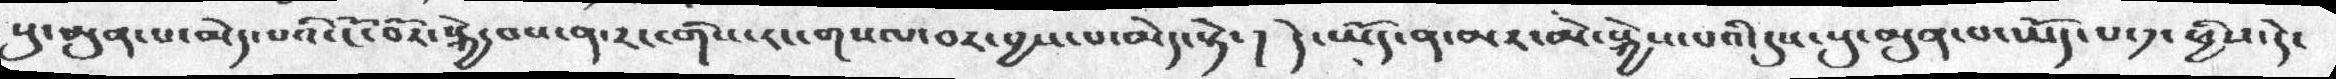སུ་མུན་པ་མེད་པའི་ངོ་བོར་སྐྱེ་བས་ན་རང་གི་རང་གསལ་བར་བྱས་པ་མེད་སྟེ་ ། དེ་ཡོད་ན་མར་མེ་སྐྱེས་པའི་དུས་སུ་མུན་པ་ཡོད་པ་༡་ཕྱིས་དེ་
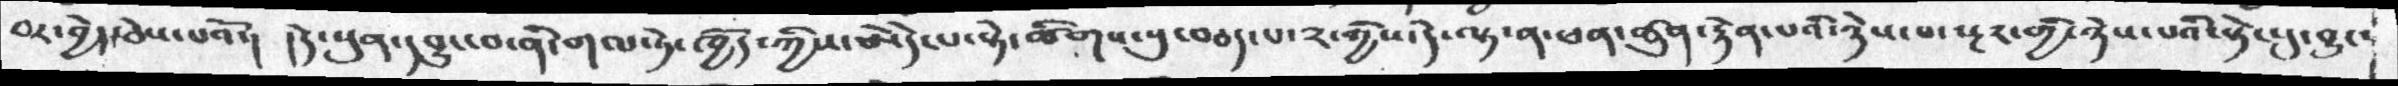བར་བྱེད་ཅེས་པའོ་། །དེ་སུན་དབྱུང་བ་ནི་གལ་ཏེ་ཁྱོད་ཀྱིས་ཨེདེ་པ་སྟེ་ཚིགས་སུ་བཅད་པ་༢་གྱིས་དེ་ལྟ་ན་ཕན་ཚུན་རྟེན་པའི་ཉེས་པ་སྔར་གྱི་ཉེས་པའི་སྟེང་དུ་བྱུང་
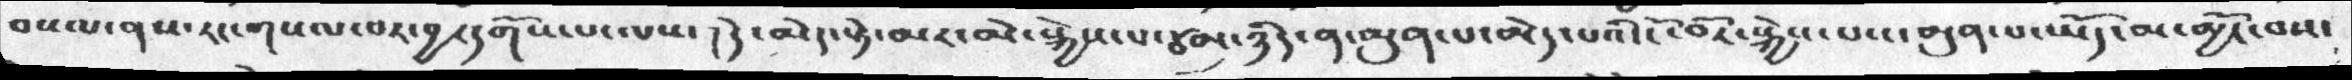བསལ་ནས་རང་གསལ་བར་བྱ་དགོས་པ་ལས་ ། དེ་མེད་སྟེ་མར་མེ་སྐྱེས་པ་ཙམ་ཉིད་ན་མུན་པ་མེད་པའི་ངོ་བོར་སྐྱེས་པས་མུན་པ་ཡོད་མ་མྱོང་བས་
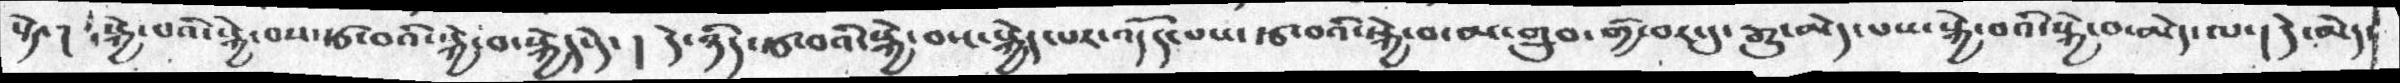སྟེ་། སྐྱེ་པའི་སྐྱེ་བས་རྩ་བའི་སྐྱེ་བ་སྐྱེད་དེ་ ། དེ་ཉིད་རྩ་བའི་སྐྱེ་བས་སྐྱེད་པར་འདོད་པས་རྩ་བའི་སྐྱེ་བ་མ་གྲུབ་གྱི་བར་དུ་རྒྱུ་མེད་པས་སྐྱེ་བའི་སྐྱེ་བ་མེད་ལ་། དེ་མེད་
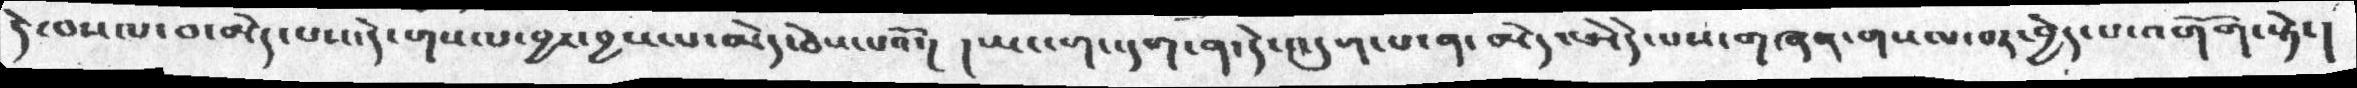དེ་བསལ་བ་མེད་པས་དེ་གསལ་བྱ་བྱས་པ་མེད་ཅེས་པའོ་།  ། ཡང་གང་དག་ན་དེ་འདུག་པ་ན་མེད་ཨེདེ་པས་གཞན་གསལ་བར་བྱེད་པ་འགོག་སྟེ་།
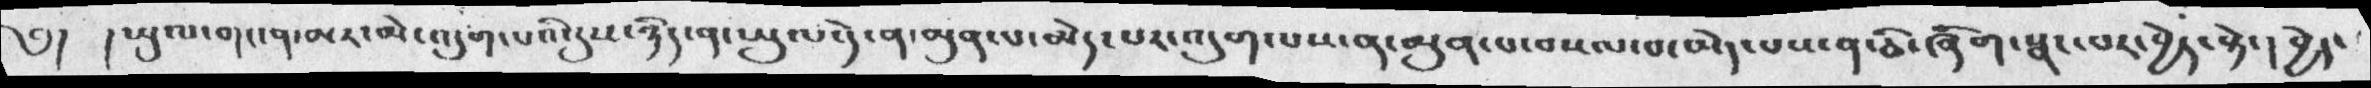༄། །ཡུལ་གང་ན་མར་མེ་འདུག་པའི་དུས་ཉིད་ན་ཡུལ་དེ་ན་མུན་པ་མེད་པར་འདུག་པས་ན་མུན་པ་བསལ་བ་མེད་པས་ན་ཅི་ཞིག་སྣང་པར་བྱེད་སྟེ་། བྱེད་
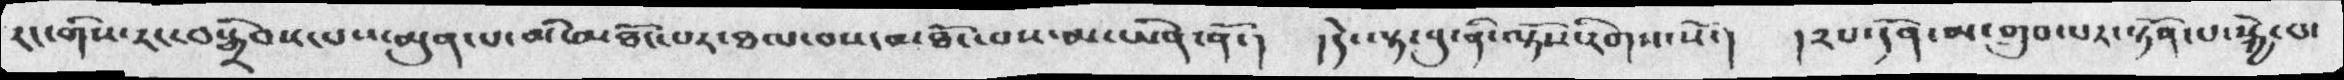རང་གིས་རང་བསྒྲིབས་པས་མུན་པ་མི་མཐོང་པར་ཐལ་བས་མཐོང་བས་མ་ཡིན་ནོ་།  །དེ་ལྟ་བུ་ནི་ལྟོས་རིགས་སོ་།  །༢པ་དོན་མ་གྲུབ་པར་སྟོན་པ་སྐྱེ་བ་
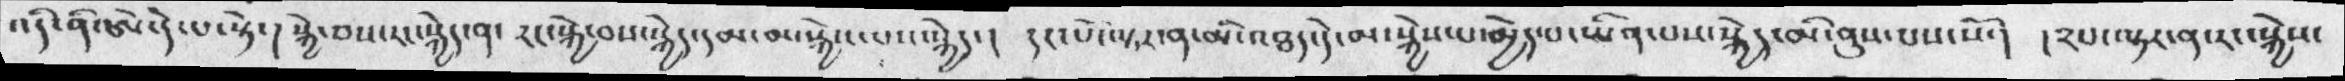འདི་ནི་ཨེ་དེ་པ་སྟེ་ ། སྐྱེ་བས་རང་སྐྱེད་ན་ རང་སྐྱེ་བས་སྐྱེད་དམ་མ་སྐྱེས་པས་སྐྱེད་། དང་པོ་ལྟར་ན་མི་འཐད་དེ་མ་སྐྱེས་པ་མྱེད་པ་ཡིན་པས་སྐྱེད་མི་ནུས་པས་སོ་། །༢པ་ལྟར་ན་རང་སྐྱེས་
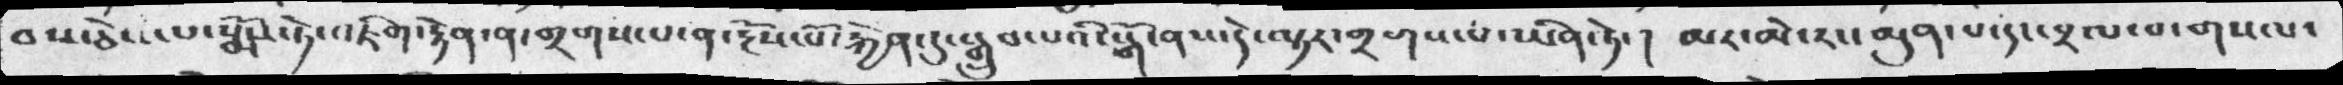བས་ཅེས་པ་སྨོས་ཏེ་འཇིག་རྟེན་ན་གྲགས་པ་ན་རྔོས་པོ་རྐྱེན་དུ་སྒྲུབ་པའི་སྒོ་ནས་དེ་ལྟར་གྲགས་པ་ཡིན་ཏེ་།  མར་མེ་རང་མུན་པ་དང་བྲལ་བ་གསལ་
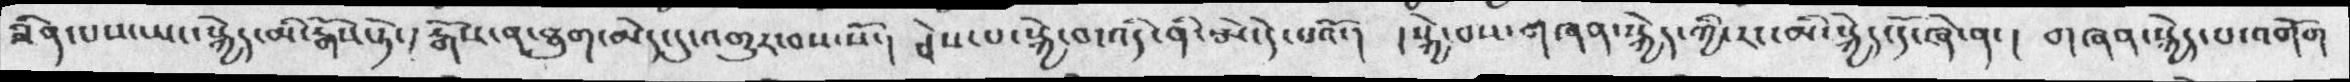ཟིན་པས་ཡང་སྐྱེད་མི་རྒོས་ཏེ་། རྒོས་ན་ཐུག་མེད་དུ་འགྱུར་བས་སོ་། ཎེས་པ་སྐྱེ་བ་འདི་ནི་ཨེ་དེ་པའོ་།  །སྐྱེ་བས་གཞན་སྐྱེད་ཀྱི་རང་མི་སྐྱེད་དོ་ཞེ་ན་།  གཞན་སྐྱེད་པ་འགོག
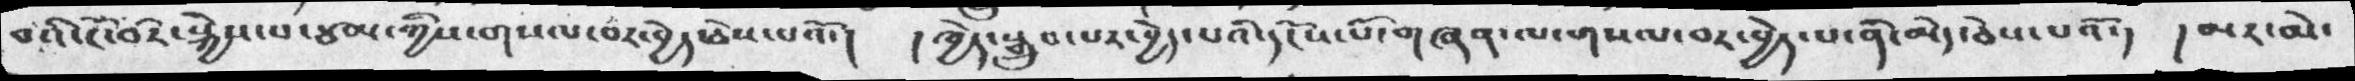བའི་ངོ་བོར་སྐྱེས་པ་ཙམ་ཀྱིས་གསལ་བར་བྱེད་ཅེས་པའོ་།  ། ཁྱེད་སྒྲུབ་པར་བྱེད་པའི་དངོས་པོ་གཞན་ལ་གསལ་བར་བྱེད་པ་ནི་མེད་ཅེས་པའོ་།  ། མར་མེ་
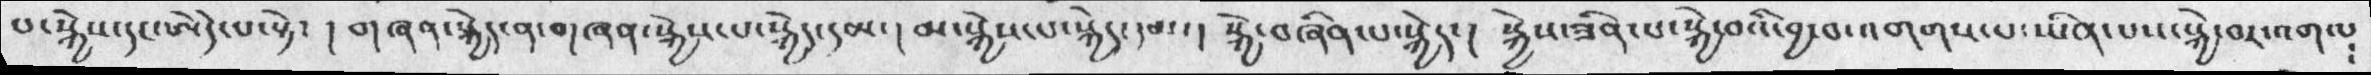པ་སྐྱེས་དང་ཨེདེ་པ་སྟེ་ ། གཞན་སྐྱེད་ན་གཞན་སྐྱེས་པ་སྐྱེད་དམ་།  མ་སྐྱེས་པ་སྐྱེད་དམ་།  སྐྱེ་བཞིན་པ་སྐྱེད་།  སྐྱེས་ཟིན་པ་སྐྱེ་བའི་བྱ་བ་འགགས་པ་ཡིན་པས་སྐྱེ་བར་འགལ
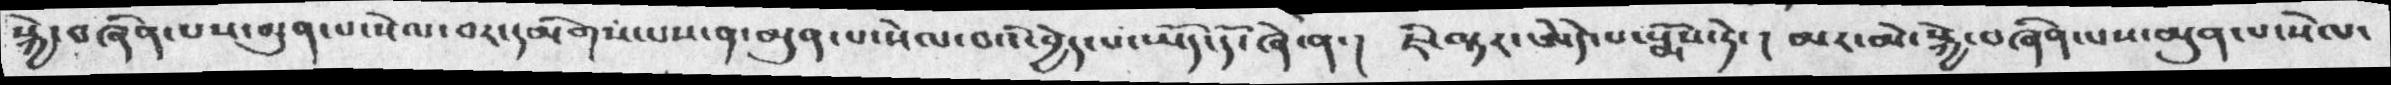སྐྱེ་བཞིན་པས་མུན་པ་སེལ་བར་དམིགས་པས་ན་མུན་པ་སེལ་བའི་བྱེད་པ་ཡོད་དོ་ཞེ་ན་།  ཇི་ལྟར་ཨེདེ་པ་སྨོས་ཏེ་།  མར་མར་སྐྱེ་བཞིན་པས་མུན་པ་སེལ་
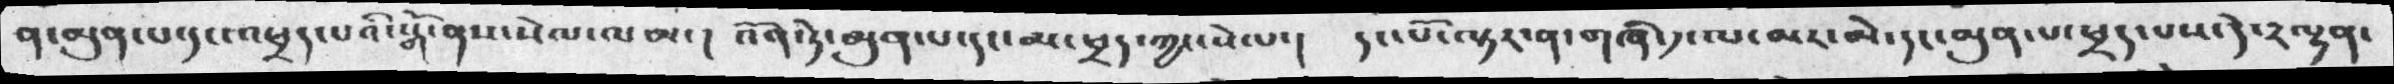ན་མུན་པ་དང་འཕྲད་པའི་སྒོ་ནས་སེལ་ལམ་། འོན་ཏེ་མུན་པ་དང་མ་ཕྲད་ཀྱང་སེལ་།  དང་པོ་ལྟར་ན་གཞི་༡་ལ་མར་མེ་དང་མུན་པ་ཕྲད་པས་དེ་༢ལྡན་
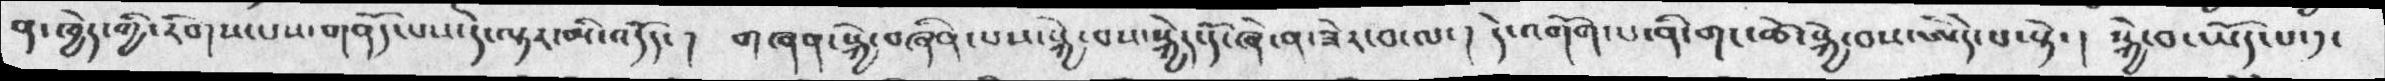ན་ཁྱེད་ཀྱི་རིགས་པས་གནོད་པས་དེ་ལྟར་མི་འདོད་།  གཞན་སྐྱེ་བཞིན་པས་སྐྱེ་བས་སྐྱེད་དོ་ཞེ་ན་ཟེར་བ་ལ་།  དེ་འགོག་པ་ནི་གང་ཚོ་སྐྱེ་བས་ཨེདེ་པ་སྟེ་།  སྐྱེ་བ་ཡོད་པ་དུ་
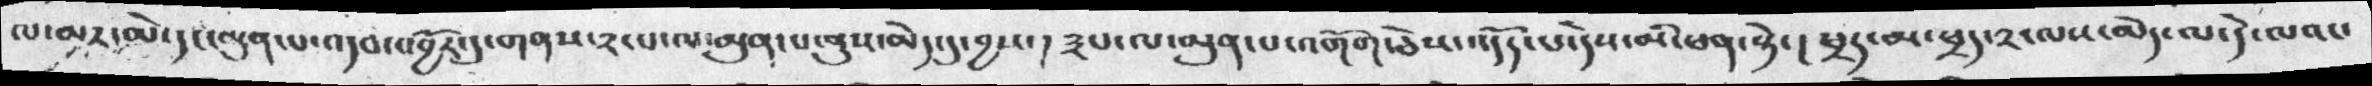ལ་མར་མེ་དང་མུན་པ་འདབ་འབྱོར་དུ་གནས་༢་པ་ལ་མུན་པ་ནུས་མེད་དུ་བྱས་།  ༣པ་ལ་མུན་པ་འགོག་ཅེས་འདོད་པ་དེས་མི་ཕན་སྟེ་།  ཕྲད་མ་ཕྲད་༢་ལས་མེད་ལ་དེ་ལའང་
